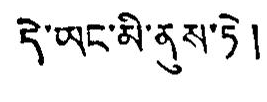དེ་ཡང་མི་ནུས་ཏེ །
